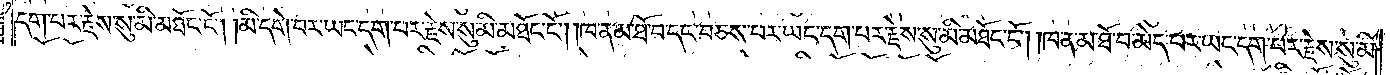དག་པར་རྗེས་སུ་མི་མཐོང་ངོ༌། །མི་དགེ་བར་ཡང་དག་པར་རྗེས་སུ་མི་མཐོང་ངོ༌། །ཁ་ན་མ་ཐོ་བ་དང་བཅས་པར་ཡང་དག་པར་རྗེས་སུ་མི་མཐོང་ངོ༌། །ཁ་ན་མ་ཐོ་བ་མེད་པར་ཡང་དག་པར་རྗེས་སུ་མི་
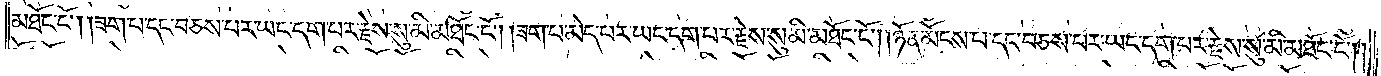མཐོང་ངོ༌། །ཟག་པ་དང་བཅས་པར་ཡང་དག་པར་རྗེས་སུ་མི་མཐོང་ངོ༌། །ཟག་པ་མེད་པར་ཡང་དག་པར་རྗེས་སུ་མི་མཐོང་ངོ༌། །ཉོན་མོངས་པ་དང་བཅས་པར་ཡང་དག་པར་རྗེས་སུ་མི་མཐོང་ངོ༌། །
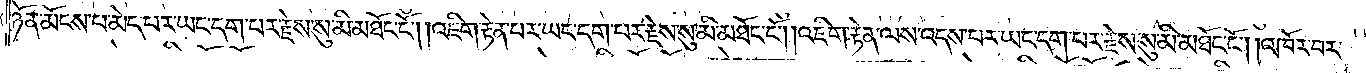ཉོན་མོངས་པ་མེད་པར་ཡང་དག་པར་རྗེས་སུ་མི་མཐོང་ངོ༌། །འཇིག་རྟེན་པར་ཡང་དག་པར་རྗེས་སུ་མི་མཐོང་ངོ༌། །འཇིག་རྟེན་ལས་འདས་པར་ཡང་དག་པར་རྗེས་སུ་མི་མཐོང་ངོ༌། །འཁོར་བར་
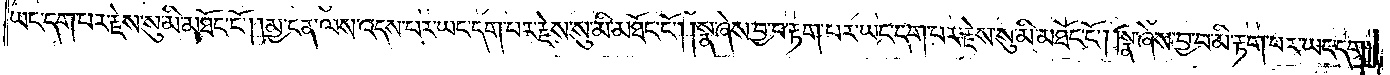ཡང་དག་པར་རྗེས་སུ་མི་མཐོང་ངོ༌། །མྱ་ངན་ལས་འདས་པར་ཡང་དག་པར་རྗེས་སུ་མི་མཐོང་ངོ༌། །སྣ་ཞེས་བྱ་བ་རྟག་པར་ཡང་དག་པར་རྗེས་སུ་མི་མཐོང་ངོ༌། །སྣ་ཞེས་བྱ་བ་མི་རྟག་པར་ཡང་དག་
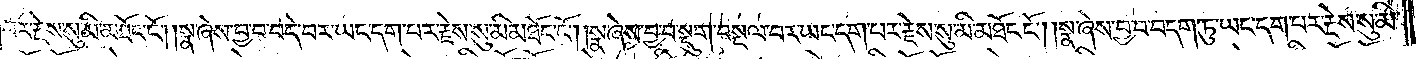པར་རྗེས་སུ་མི་མཐོང་ངོ༌། །སྣ་ཞེས་བྱ་བ་བདེ་བར་ཡང་དག་པར་རྗེས་སུ་མི་མཐོང་ངོ༌། །སྣ་ཞེས་བྱ་བ་སྡུག་བསྔལ་བར་ཡང་དག་པར་རྗེས་སུ་མི་མཐོང་ངོ༌། །སྣ་ཞེས་བྱ་བ་བདག་ཏུ་ཡང་དག་པར་རྗེས་སུ་མི་
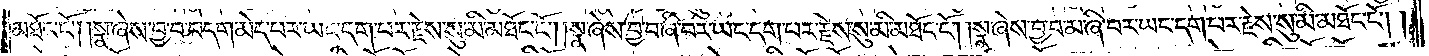མཐོང་ངོ༌། །སྣ་ཞེས་བྱ་བ་བདག་མེད་པར་ཡང་དག་པར་རྗེས་སུ་མི་མཐོང་ངོ༌། །སྣ་ཞེས་བྱ་བ་ཞི་བར་ཡང་དག་པར་རྗེས་སུ་མི་མཐོང་ངོ༌། །སྣ་ཞེས་བྱ་བ་མ་ཞི་བར་ཡང་དག་པར་རྗེས་སུ་མི་མཐོང་ངོ༌། །
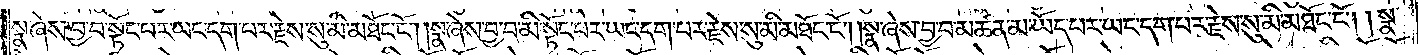སྣ་ཞེས་བྱ་བ་སྟོང་པར་ཡང་དག་པར་རྗེས་སུ་མི་མཐོང་ངོ༌། །སྣ་ཞེས་བྱ་བ་མི་སྟོང་པར་ཡང་དག་པར་རྗེས་སུ་མི་མཐོང་ངོ༌། །སྣ་ཞེས་བྱ་བ་མཚན་མ་ཡོད་པར་ཡང་དག་པར་རྗེས་སུ་མི་མཐོང་ངོ༌། །སྣ་
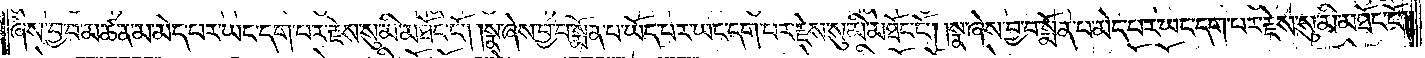ཞེས་བྱ་བ་མཚན་མ་མེད་པར་ཡང་དག་པར་རྗེས་སུ་མི་མཐོང་ངོ༌། །སྣ་ཞེས་བྱ་བ་སྨོན་པ་ཡོད་པར་ཡང་དག་པར་རྗེས་སུ་མི་མཐོང་ངོ༌། །སྣ་ཞེས་བྱ་བ་སྨོན་པ་མེད་པར་ཡང་དག་པར་རྗེས་སུ་མི་མཐོང་ངོ༌༎
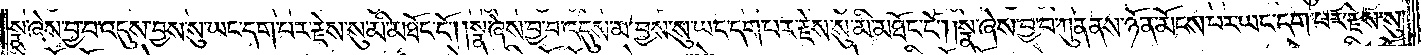སྣ་ཞེས་བྱ་བ་འདུས་བྱས་སུ་ཡང་དག་པར་རྗེས་སུ་མི་མཐོང་ངོ༌། །སྣ་ཞེས་བྱ་བ་འདུས་མ་བྱས་སུ་ཡང་དག་པར་རྗེས་སུ་མི་མཐོང་ངོ༌། །སྣ་ཞེས་བྱ་བ་ཀུན་ནས་ཉོན་མོངས་པར་ཡང་དག་པར་རྗེས་སུ་
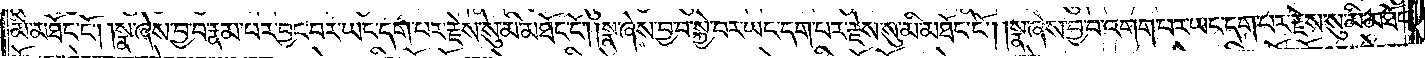མི་མཐོང་ངོ༌། །སྣ་ཞེས་བྱ་བ་རྣམ་པར་བྱང་བར་ཡང་དག་པར་རྗེས་སུ་མི་མཐོང་ངོ༌། །སྣ་ཞེས་བྱ་བ་སྐྱེ་བར་ཡང་དག་པར་རྗེས་སུ་མི་མཐོང་ངོ༌། །སྣ་ཞེས་བྱ་བ་འགག་པར་ཡང་དག་པར་རྗེས་སུ་མི་མཐོང་
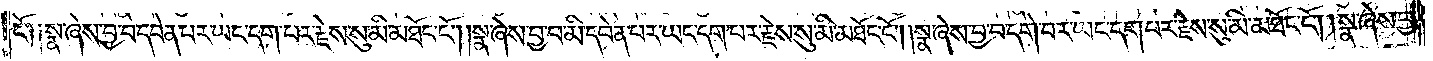ངོ༑ ༑སྣ་ཞེས་བྱ་བ་དབེན་པར་ཡང་དག་པར་རྗེས་སུ་མི་མཐོང་ངོ༌། །སྣ་ཞེས་བྱ་བ་མི་དབེན་པར་ཡང་དག་པར་རྗེས་སུ་མི་མཐོང་ངོ༌། །སྣ་ཞེས་བྱ་བ་དགེ་བར་ཡང་དག་པར་རྗེས་སུ་མི་མཐོང་ངོ༌། །སྣ་ཞེས་བྱ་
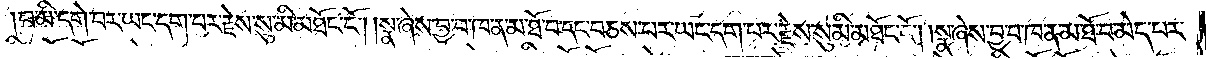བ་མི་དགེ་བར་ཡང་དག་པར་རྗེས་སུ་མི་མཐོང་ངོ༌། །སྣ་ཞེས་བྱ་བ་ཁ་ན་མ་ཐོ་བ་དང་བཅས་པར་ཡང་དག་པར་རྗེས་སུ་མི་མཐོང་ངོ༌། །སྣ་ཞེས་བྱ་བ་ཁ་ན་མ་ཐོ་བ་མེད་པར་
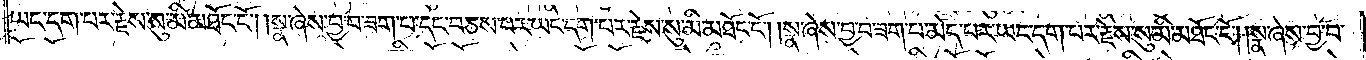ཡང་དག་པར་རྗེས་སུ་མི་མཐོང་ངོ༌། །སྣ་ཞེས་བྱ་བ་ཟག་པ་དང་བཅས་པར་ཡང་དག་པར་རྗེས་སུ་མི་མཐོང་ངོ༌། །སྣ་ཞེས་བྱ་བ་ཟག་པ་མེད་པར་ཡང་དག་པར་རྗེས་སུ་མི་མཐོང་ངོ༌། །སྣ་ཞེས་བྱ་བ་
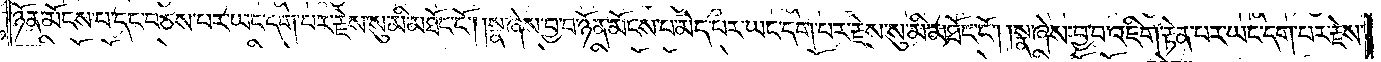ཉོན་མོངས་པ་དང་བཅས་པར་ཡང་དག་པར་རྗེས་སུ་མི་མཐོང་ངོ༌། །སྣ་ཞེས་བྱ་བ་ཉོན་མོངས་པ་མེད་པར་ཡང་དག་པར་རྗེས་སུ་མི་མཐོང་ངོ༌། །སྣ་ཞེས་བྱ་བ་འཇིག་རྟེན་པར་ཡང་དག་པར་རྗེས་
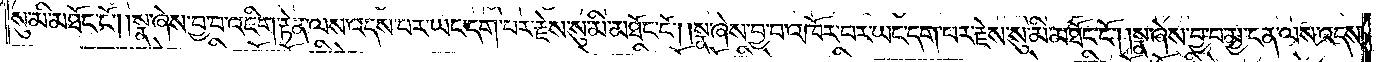སུ་མི་མཐོང་ངོ༌། །སྣ་ཞེས་བྱ་བ་འཇིག་རྟེན་ལས་འདས་པར་ཡང་དག་པར་རྗེས་སུ་མི་མཐོང་ངོ༌། །སྣ་ཞེས་བྱ་བ་འཁོར་བར་ཡང་དག་པར་རྗེས་སུ་མི་མཐོང་ངོ༌། །སྣ་ཞེས་བྱ་བ་མྱ་ངན་ལས་འདས་
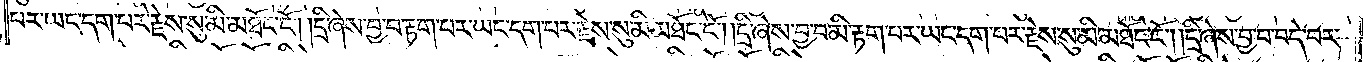པར་ཡང་དག་པར་རྗེས་སུ་མི་མཐོང་ངོ༌། །དྲི་ཞེས་བྱ་བ་རྟག་པར་ཡང་དག་པར་རྗེས་སུ་མི་མཐོང་ངོ༌། །དྲི་ཞེས་བྱ་བ་མི་རྟག་པར་ཡང་དག་པར་རྗེས་སུ་མི་མཐོང་ངོ༌། །དྲི་ཞེས་བྱ་བ་བདེ་བར་
